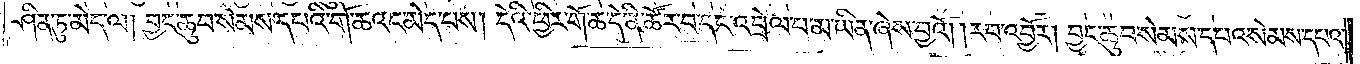ཤིན་ཏུ་མེད་ལ། བྱང་ཆུབ་སེམས་དཔའི་གོ་ཆའང་མེད་པས། དེའི་ཕྱིར་གོ་ཆ་དེ་ནི་ཚོར་བ་དང་འབྲེལ་པ་མ་ཡིན་ཞེས་བྱའོ། །རབ་འབྱོར། བྱང་ཆུབ་སེམས་དཔའ་སེམས་དཔའ་
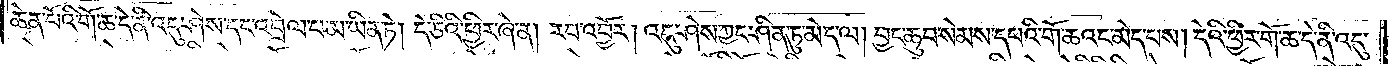ཆེན་པོའི་གོ་ཆ་དེ་ནི་འདུ་ཤེས་དང་འབྲེལ་པ་མ་ཡིན་ཏེ། དེ་ཅིའི་ཕྱིར་ཞེ་ན། རབ་འབྱོར། འདུ་ཤེས་ཀྱང་ཤིན་ཏུ་མེད་ལ། བྱང་ཆུབ་སེམས་དཔའི་གོ་ཆའང་མེད་པས། དེའི་ཕྱིར་གོ་ཆ་དེ་ནི་འདུ་
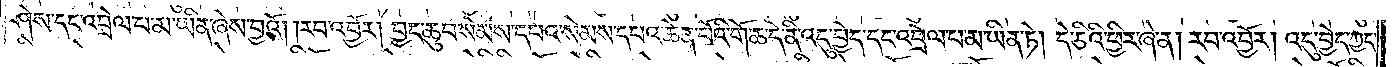ཤེས་དང་འབྲེལ་པ་མ་ཡིན་ཞེས་བྱའོ། །རབ་འབྱོར། བྱང་ཆུབ་སེམས་དཔའ་སེམས་དཔའ་ཆེན་པོའི་གོ་ཆ་དེ་ནི་འདུ་བྱེད་དང་འབྲེལ་པ་མ་ཡིན་ཏེ། དེ་ཅིའི་ཕྱིར་ཞེ་ན། རབ་འབྱོར། འདུ་བྱེད་ཀྱང་
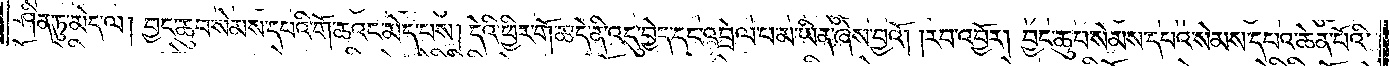ཤིན་ཏུ་མེད་པ། བྱང་ཆུབ་སེམས་དཔའི་གོ་ཆའང་མེད་པས། དེའི་ཕྱིར་གོ་ཆ་དེ་ནི་འདུ་བྱེད་དང་འབྲེལ་པ་མ་ཡིན་ཞེས་བྱའོ། །རབ་འབྱོར། བྱང་ཆུབ་སེམས་དཔའ་སེམས་དཔའ་ཆེན་པོའི་
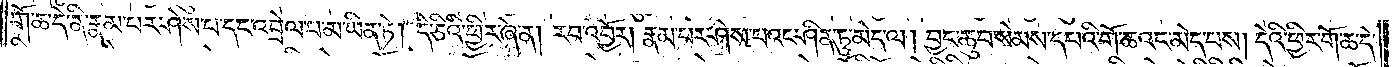གོ་ཆ་དེ་ནི་རྣམ་པར་ཤེས་པ་དང་འབྲེལ་པ་མ་ཡིན་ཏེ། དེ་ཅིའི་ཕྱིར་ཞེ་ན། རབ་འབྱོར། རྣམ་པར་ཤེས་པའང་ཤིན་ཏུ་མེད་ལ། བྱང་ཆུབ་སེམས་དཔའི་གོ་ཆའང་མེད་པས། དེའི་ཕྱིར་གོ་ཆ་དེ་
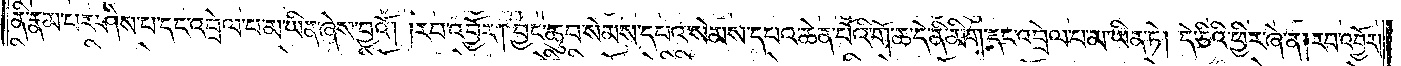ནི་རྣམ་པར་ཤེས་པ་དང་འབྲེལ་པ་མ་ཡིན་ཞེས་བྱའོ། །རབ་འབྱོར། བྱང་ཆུབ་སེམས་དཔའ་སེམས་དཔའ་ཆེན་པོའི་གོ་ཆ་དེ་ནི་མིག་དང་འབྲེལ་པ་མ་ཡིན་ཏེ། དེ་ཅིའི་ཕྱིར་ཞེ་ན། རབ་འབྱོར།
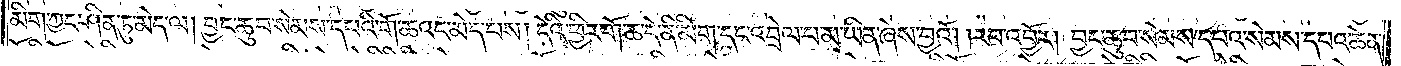མིག་ཀྱང་ཤིན་ཏུ་མེད་ལ། བྱང་ཆུབ་སེམས་དཔའི་གོ་ཆའང་མེད་པས། དེའི་ཕྱིར་གོ་ཆ་དེ་ནི་མིག་དང་འབྲེལ་པ་མ་ཡིན་ཞེས་བྱའོ། །རབ་འབྱོར། བྱང་ཆུབ་སེམས་དཔའ་སེམས་དཔའ་ཆེན་
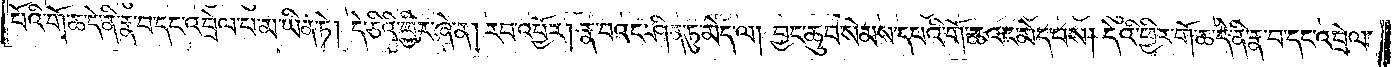པོའི་གོ་ཆ་དེ་ནི་རྣ་བ་དང་འབྲེལ་པ་མ་ཡིན་ཏེ། དེ་ཅིའི་ཕྱིར་ཞེ་ན། རབ་འབྱོར། རྣ་བའང་ཤིན་ཏུ་མེད་ལ། བྱང་ཆུབ་སེམས་དཔའི་གོ་ཆའང་མེད་པས། དེའི་ཕྱིར་གོ་ཆ་དེ་ནི་རྣ་བ་དང་འབྲེལ་
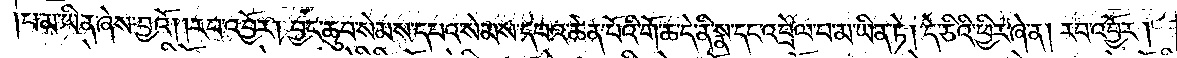པ་མ་ཡིན་ཞེས་བྱའོ། །རབ་འབྱོར། བྱང་ཆུབ་སེམས་དཔའ་སེམས་དཔའ་ཆེན་པོའི་གོ་ཆ་དེ་ནི་སྣ་དང་འབྲེལ་པ་མ་ཡིན་ཏེ། དེ་ཅིའི་ཕྱིར་ཞེ་ན། རབ་འབྱོར།
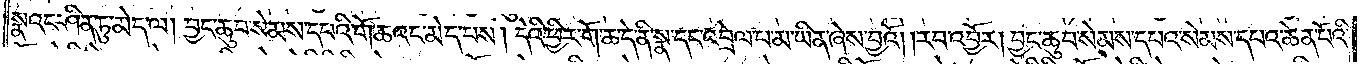སྣའང་ཤིན་ཏུ་མེད་ལ། བྱང་ཆུབ་སེམས་དཔའི་གོ་ཆའང་མེད་པས། དེའི་ཕྱིར་གོ་ཆ་དེ་ནི་སྣ་དང་འབྲེལ་པ་མ་ཡིན་ཞེས་བྱའོ། །རབ་འབྱོར། བྱང་ཆུབ་སེམས་དཔའ་སེམས་དཔའ་ཆེན་པོའི་
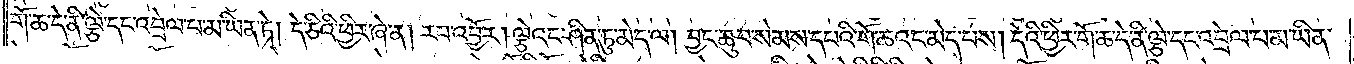གོ་ཆ་དེ་ནི་ལྕེ་དང་འབྲེལ་པ་མ་ཡིན་ཏེ། དེ་ཅིའི་ཕྱིར་ཞེ་ན། རབ་འབྱོར། ལྕེའང་ཤིན་ཏུ་མེད་ལ། བྱང་ཆུབ་སེམས་དཔའི་གོ་ཆའང་མེད་པས། དེའི་ཕྱིར་གོ་ཆ་དེ་ནི་ལྕེ་དང་འབྲེལ་པ་མ་ཡིན་
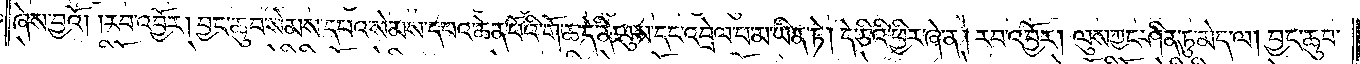ཞེས་བྱའོ། །རབ་འབྱོར། བྱང་ཆུབ་སེམས་དཔའ་སེམས་དཔའ་ཆེན་པོའི་གོ་ཆ་དེ་ནི་ལུས་དང་འབྲེལ་པ་མ་ཡིན་ཏེ། དེ་ཅིའི་ཕྱིར་ཞེ་ན། རབ་འབྱོར། ལུས་ཀྱང་ཤིན་ཏུ་མེད་ལ། བྱང་ཆུབ་
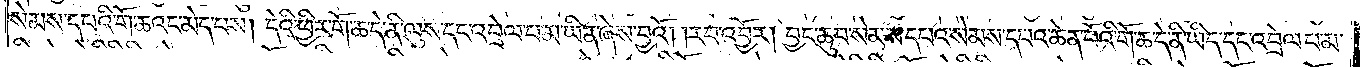སེམས་དཔའི་གོ་ཆའང་མེད་པས། དེའི་ཕྱིར་གོ་ཆ་དེ་ནི་ལུས་དང་འབྲེལ་པ་མ་ཡིན་ཞེས་བྱའོ། །རབ་འབྱོར། བྱང་ཆུབ་སེམས་དཔའ་སེམས་དཔའ་ཆེན་པོའི་གོ་ཆ་དེ་ནི་ཡིད་དང་འབྲེལ་པ་མ་
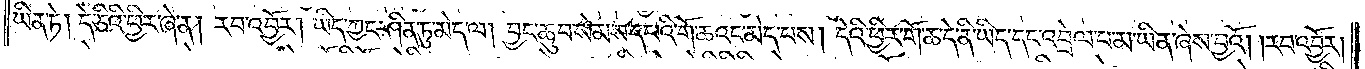ཡིན་ཏེ། དེ་ཅིའི་ཕྱིར་ཞེ་ན། རབ་འབྱོར། ཡིད་ཀྱང་ཤིན་ཏུ་མེད་ལ། བྱང་ཆུབ་སེམས་དཔའི་གོ་ཆའང་མེད་པས། དེའི་ཕྱིར་གོ་ཆ་དེ་ནི་ཡིད་དང་འབྲེལ་པ་མ་ཡིན་ཞེས་བྱའོ། །རབ་འབྱོར།
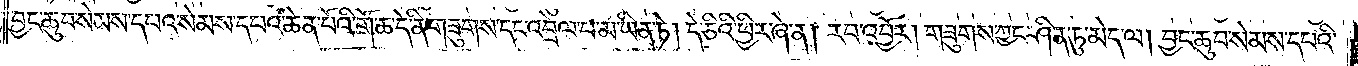བྱང་ཆུབ་སེམས་དཔའ་སེམས་དཔའ་ཆེན་པོའི་གོ་ཆ་དེ་ནི་གཟུགས་དང་འབྲེལ་པ་མ་ཡིན་ཏེ། དེ་ཅིའི་ཕྱིར་ཞེ་ན། རབ་འབྱོར། གཟུགས་ཀྱང་ཤིན་ཏུ་མེད་ལ། བྱང་ཆུབ་སེམས་དཔའི་
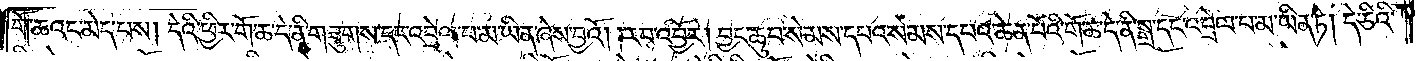གོ་ཆའང་མེད་པས། དེའི་ཕྱིར་གོ་ཆ་དེ་ནི་གཟུགས་དང་འབྲེལ་པ་མ་ཡིན་ཞེས་བྱའོ། །རབ་འབྱོར། བྱང་ཆུབ་སེམས་དཔའ་སེམས་དཔའ་ཆེན་པོའི་གོ་ཆ་དེ་ནི་སྒྲ་དང་འབྲེལ་པ་མ་ཡིན་ཏེ། དེ་ཅིའི་
